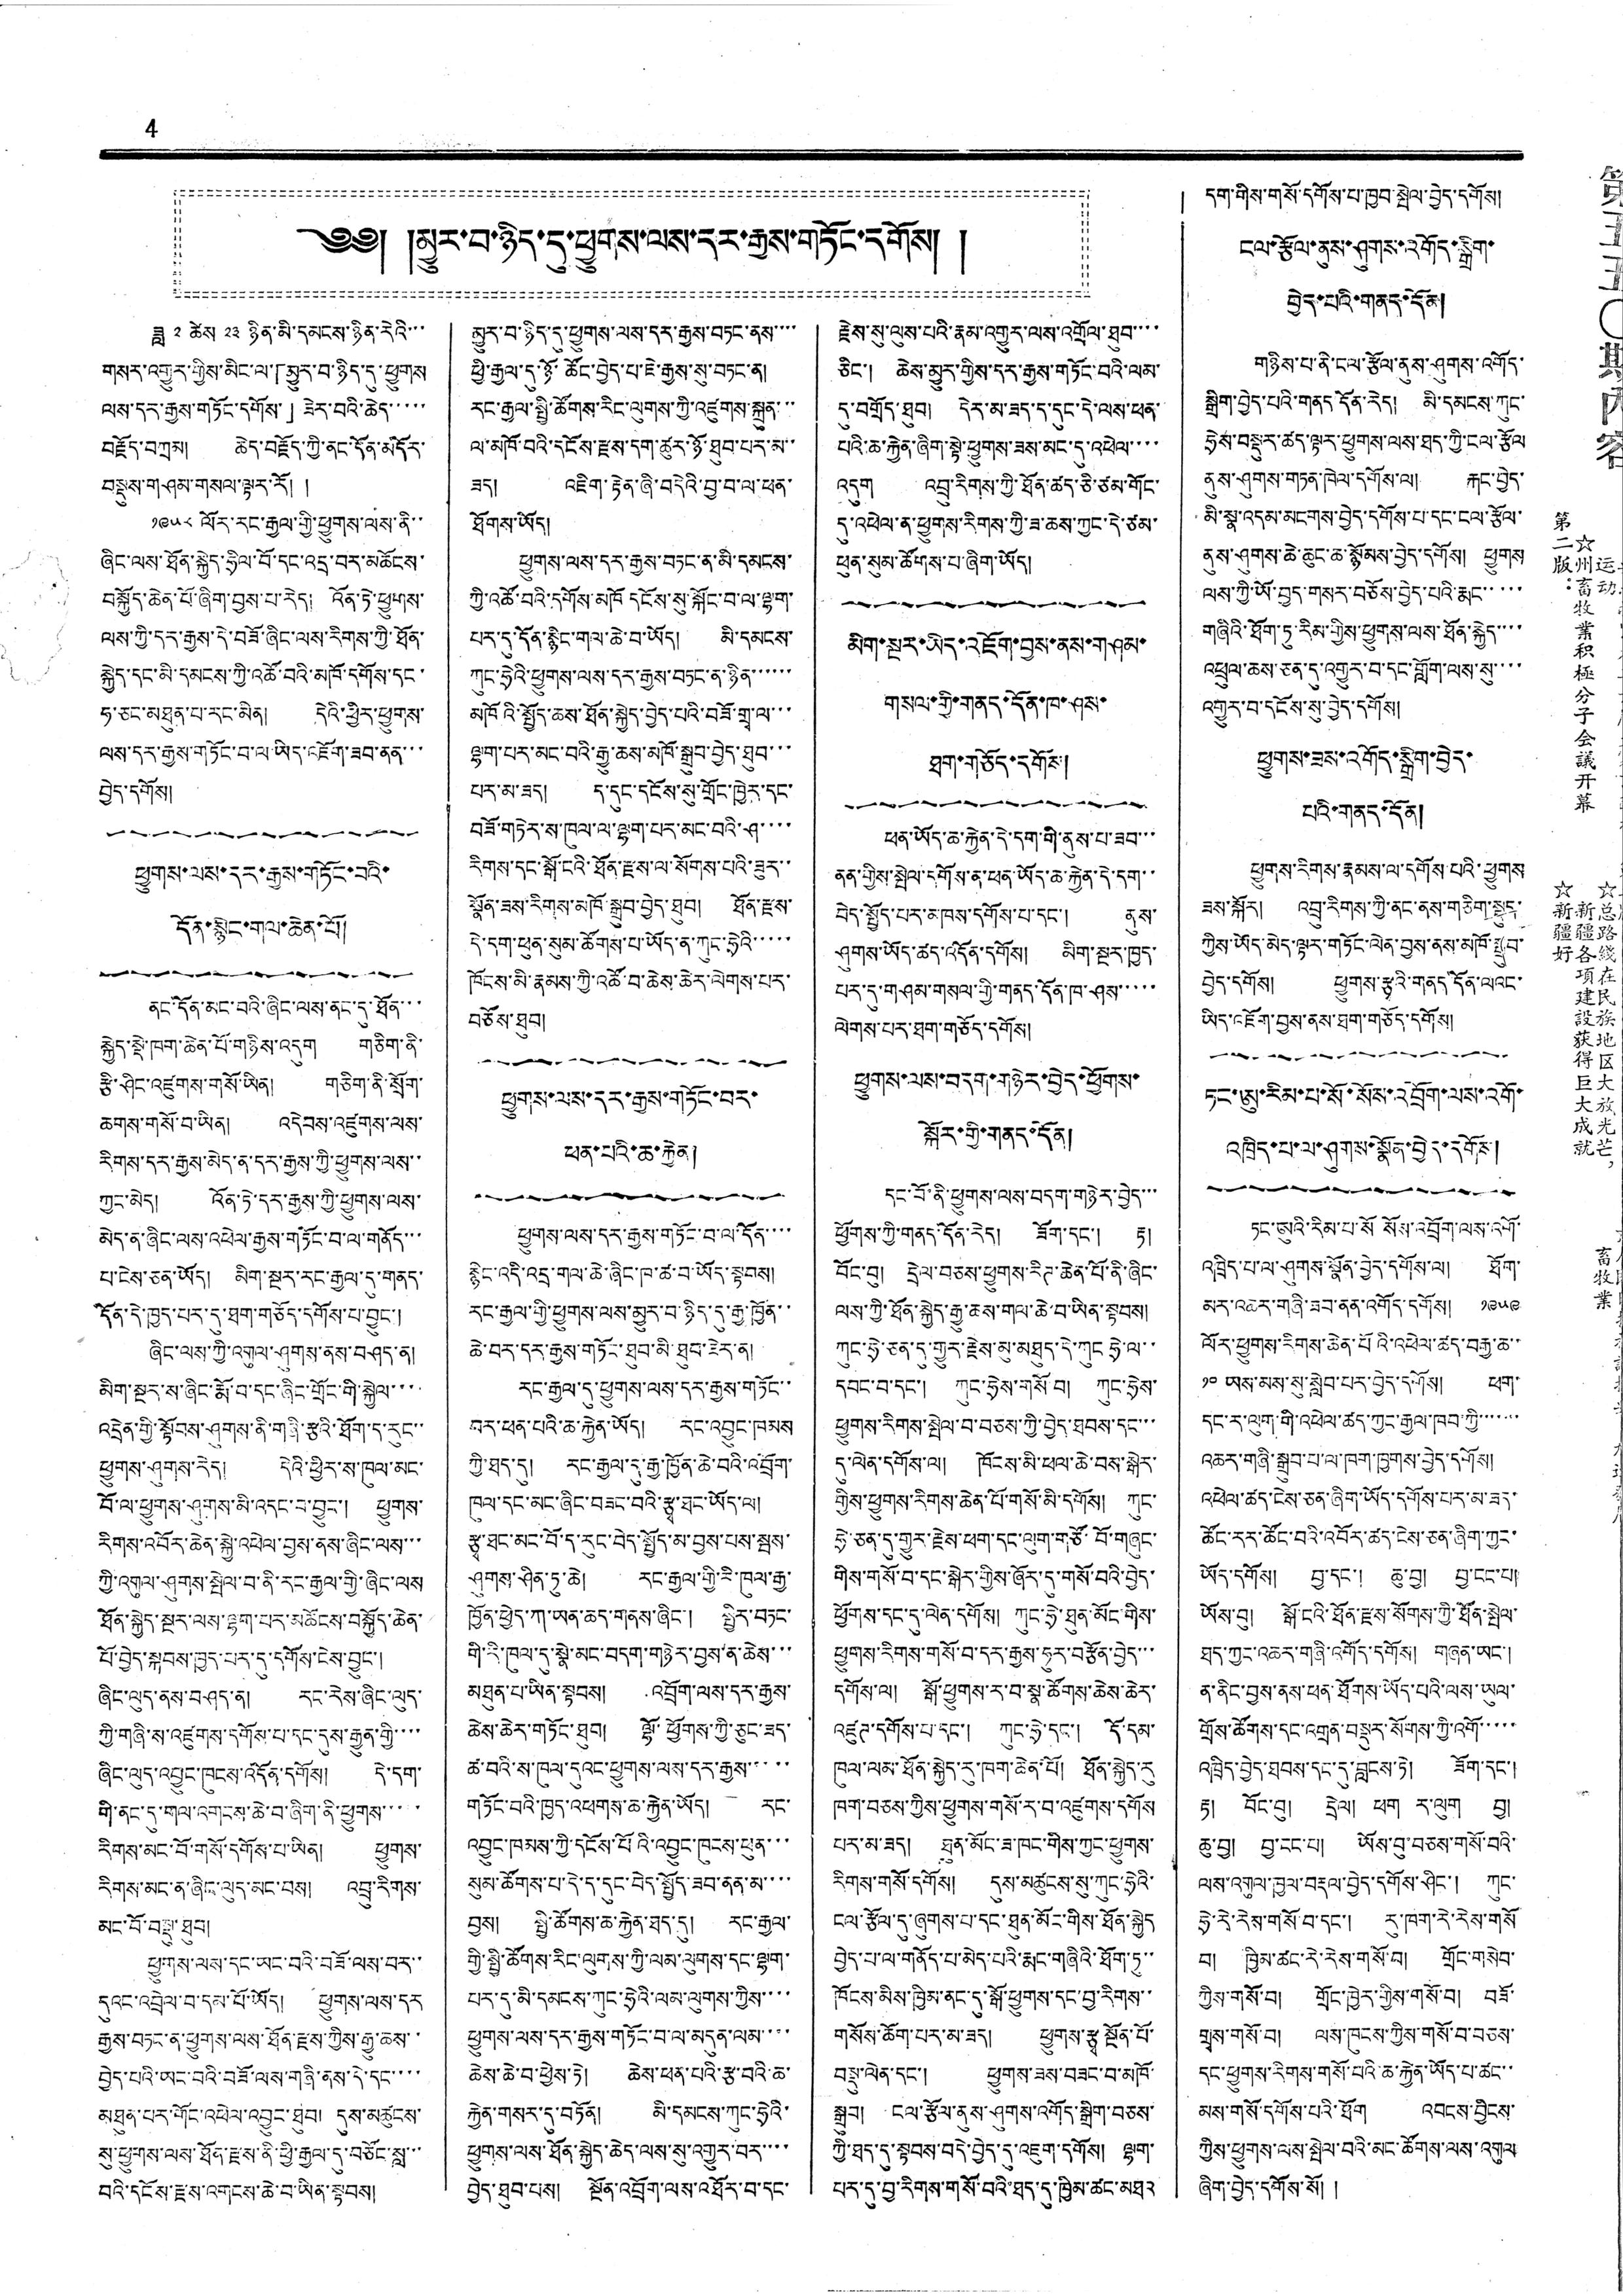4
༄༅། །མྱུར་བ་ཉིད་དུ་ཕྱུགས་ལས་དར་རྒྱས་གཏོང་དགོས། །
ཟླ ༢ ཚེས ༢༣ ཉིན་མི་དམངས་ཉིན་རེའི་་་
གསར་འགྱུར་གྱིས་མིང་ལ་「མྱུར་བ་ཉིད་དུ་ཕྱུགས
ལས་དར་རྒྱས་གཏོང་དགོས་」ཟེར་བའི་ཆེད་་་་་
བརྗོད་བཀྲམ། ཆེད་བརྗོད་ཀྱི་ནང་དོན་མདོར་
བསྡུས་གཤམ་གསལ་ལྟར་རོ། །
༡༩༥༨ ལོར་རང་རྒྱལ་གྱི་ཕྱུགས་ལས་ནི་་
ཞིང་ལས་ཐོན་སྐྱེད་ཧྲིལ་བོ་དང་འདྲ་བར་མཆོངས་
བསྐྱོད་ཆེན་པོ་ཞིག་བྱས་པ་རེད། འོན་ཏེ་ཕྱུགས་
ལས་ཀྱི་དར་རྒྱས་དེ་བཟོ་ཞིང་ལས་རིགས་ཀྱི་ཐོན་
སྐྱེད་དང་མི་དམངས་ཀྱི་འཚོ་བའི་མཁོ་དགོས་དང་
ཧ་ཅང་མཐུན་པ་རང་མིན། དེའི་ཕྱིར་ཕྱུགས་
ལས་དར་རྒྱས་གཏོང་བ་ལ་ཡིད་འཇོག་ཟབ་ནན་་་
བྱེད་དགོས།
ཕྱུགས་ལས་དར་རྒྱས་གཏོང་བའི་
དོན་སྙིང་གལ་ཆེན་པོ།
ནང་དོན་མང་བའི་ཞིང་ལས་ནང་དུ་ཐོན་་་
སྐྱེད་སྡེ་ཁག་ཆེན་པོ་གཉིས་འདུག གཅིག་ནི་
རྩི་ཤིང་འཛུགས་གསོ་ཡིན། གཅིག་ནི་སྲོག་
ཆགས་གསོ་བ་ཡིན། འདེབས་འཛུགས་ལས་
རིགས་དར་རྒྱས་མེད་ན་དར་རྒྱས་ཀྱི་ཕྱུགས་ལས་་
ཀྱང་མེད། འོན་ཏེ་དར་རྒྱས་ཀྱི་ཕྱུགས་ལས་
མེད་ན་ཞིང་ལས་འཕེལ་རྒྱས་གཏོང་བ་ལ་གནོད་་་
པ་ངེས་ཅན་ཡོད། མིག་སྔར་རང་རྒྱལ་དུ་གནད་
དོན་དེ་ཁྱད་པར་དུ་ཐག་གཅོད་དགོས་པ་བྱུང་།
ཞིང་ལས་ཀྱི་འགུལ་ཤུགས་ནས་བཤད་ན།
མིག་སྔར་ས་ཞིང་རྨོ་བ་དང་ཞིང་གྲོང་གི་སྐྱེལ་་་་
འདྲེན་གྱི་སྟོབས་ཤུགས་ནི་གཞི་རྩའི་ཐོག་ད་རུང་་
ཕྱུགས་ཤུགས་རེད། དེའི་ཕྱིར་ས་ཁུལ་མང་
བོ་ལ་ཕྱུགས་ཤུགས་མི་འདང་བ་བྱུང་། ཕྱུགས་
རིགས་འབོར་ཆེན་སྐྱེ་འཕེལ་བྱས་ནས་ཞིང་ལས་་་
ཀྱི་འགུལ་ཤུགས་སྤེལ་བ་ནི་རང་རྒྱལ་གྱི་ཞིང་ལས
ཐོན་སྐྱེད་སྔར་ལས་ལྷག་པར་མཆོངས་བསྐྱོད་ཆེན་
པོ་བྱེད་སྐབས་ཁྱད་པར་དུ་དགོས་ངེས་བྱུང་།
ཞིང་ལུད་ནས་བཤད་ན། རང་རེས་ཞིང་ལུད་
ཀྱི་གཞི་ས་འཛུགས་དགོས་པ་དང་དུས་རྒྱུན་གྱི་་་་
ཞིང་ལུད་འབྱུང་ཁུངས་འདོན་དགོས། དེ་དག་
གི་ནང་དུ་གལ་འགངས་ཆེ་བ་ཞིག་ནི་ཕྱུགས་་་་་
རིགས་མང་བོ་གསོ་དགོས་པ་ཡིན། ཕྱུགས་
རིགས་མང་ན་ཞིང་ལུད་མང་བས། འབྲུ་རིགས་
མང་བོ་བསྡུ་ཐུབ།
ཕྱུགས་ལས་དང་ཡང་བའི་བཟོ་ལས་བར་་
དུའང་འབྲེལ་བ་དམ་པོ་ཡོད། ཕྱུགས་ལས་དར
རྒྱས་བཏང་ན་ཕྱུགས་ལས་ཐོན་རྫས་ཀྱིས་རྒྱུ་ཆས་་
བྱེད་པའི་ཡང་བའི་བཟོ་ལས་གཞི་ནས་དེ་དང་་་་
མཐུན་པར་གོང་འཕེལ་འབྱུང་ཐུབ། དུས་མཚུངས་
སུ་ཕྱུགས་ལས་ཐོན་རྫས་ནི་ཕྱི་རྒྱལ་དུ་བཙོང་སླ་་་
བའི་དངོས་རྫས་འགངས་ཆེ་བ་ཡིན་སྟབས།
མྱུར་བ་ཉིད་དུ་ཕྱུགས་ལས་དར་རྒྱས་བཏང་ནས་་་་
ཕྱི་རྒྱལ་དུ་ཉོ་ཚོང་བྱེད་པ་ཇེ་རྒྱས་སུ་བཏང་ན།
རང་རྒྱལ་སྤྱི་ཚོགས་རིང་ལུགས་ཀྱི་འཛུགས་སྐྲུན་་་
ལ་མཁོ་བའི་དངོས་རྫས་དག་ཚུར་ཉོ་ཐུབ་པར་མ་་
ཟད། འཇིག་རྟེན་ཞི་བདེའི་བྱ་བ་ལ་ཕན་
ཐོགས་ཡོད།
ཕྱུགས་ལས་དར་རྒྱས་བཏང་ན་མི་དམངས་
ཀྱི་འཚོ་བའི་དགོས་མཁོ དངོས་སུ་སྐོང་བ་ལ་ལྷག་
པར་དུ་དོན་སྙིང་གལ་ཆེ་བ་ཡོད། མི་དམངས་
ཀུང་ཧྲེའི་ཕྱུགས་ལས་དར་རྒྱས་བཏང་ན་ཉིན་་་་་་
མཁོའི་སྤྱོད་ཆས་ཐོན་སྐྱེད་བྱེད་པའི་བཟོ་གྲྭ་ལ་་་
ལྷག་པར་མང་བའི་རྒྱུ་ཆས་མཁོ་སྒྲུབ་བྱེད་ཐུབ་་་
པར་མ་ཟད། ད་དུང་དངོས་སུ་གྲོང་ཁྱེར་དང་
བཟོ་གཏེར་ས་ཁུལ་ལ་ལྷག་པར་མང་བའི་ཤ་་་་
རིགས་དང་སྒོ་ངའི་ཐོན་རྫས་ལ་སོགས་པའི་ཟུར་་
སྣོན་ཟས་རིགས་མཁོ་སྒྲུབ་བྱེད་ཐུབ། ཐོན་རྫས་
དེ་དག་ཕུན་སུམ་ཚོགས་པ་ཡོད་ན་ཀུང་ཧྲེའི་་་་་
ཁོངས་མི་རྣམས་ཀྱི་འཚོ་བ་ཆེས་ཆེར་ལེགས་པར་
བཅོས་ཐུབ།
ཕྱུགས་ལས་དར་རྒྱས་གཏོང་བར་
ཕན་པའི་ཆ་རྐྱེན།
ཕྱུགས་ལས་དར་རྒྱས་གཏོང་བ་ལ་དོན་་་་
སྙིང་འདི་འདྲ་གལ་ཆེ་ཞིང་ཁ་ཚ་བ་ཡོད་སྟབས།
རང་རྒྱལ་གྱི་ཕྱུགས་ལས་མྱུར་བ་ཉིད་དུ་རྒྱ་ཁྱོན་་
ཆེ་བར་དར་རྒྱས་གཏོང་ཐུབ་མི་ཐུབ་ཟེར་ན།
རང་རྒྱལ་དུ་ཕྱུགས་ལས་དར་རྒྱས་གཏོང་་
བར་ཕན་པའི་ཆ་རྐྱེན་ཡོད། རང་འབྱུང་ཁམས
ཀྱི་ཐད་དུ། རང་རྒྱལ་དུ་རྒྱ་ཁྱོན་ཆེ་བའི་འབྲོག་
ཁུལ་དང་མང་ཞིང་བཟང་བའི་རྩྭ་ཐང་ཡོད་ལ།
རྩྭ་ཐང་མང་བོ་ད་རུང་བེད་སྤྱོད་མ་བྱས་པས་སྦས་
ཤུགས་ཤིན་ཏུ་ཆེ། རང་རྒྱལ་གྱི་རི་ཁུལ་རྒྱ་
ཁྱོན་ཕྱེད་ཀ་ཡན་ཆད་གནས་ཞིང་། སྤྱིར་བཏང་
གི་རི་ཁུལ་དུ་སྣེ་མང་བདག་གཉེར་བྱས་ན་ཆེས་་་
མཐུན་པ་ཡིན་སྟབས། འབྲོག་ལས་དར་རྒྱས་
ཆེས་ཆེར་གཏོང་ཐུབ། ལྷོ་ཕྱོགས་ཀྱི་ཅུང་ཟད་
ཚ་བའི་ས་ཁུལ་དུའང་ཕྱུགས་ལས་དར་རྒྱས་་་་་
གཏོང་བའི་ཁྱད་འཕགས་ཆ་རྐྱེན་ཡོད། རང་
འབྱུང་ཁམས་ཀྱི་དངོས་པོའི་འབྱུང་ཁུངས་ཕུན་་་
སུམ་ཚོགས་པ་དེ་ད་དུང་བེད་སྤྱོད་ཟབ་ནན་མ་་་་
བྱས། སྤྱི་ཚོགས་ཆ་རྐྱེན་ཐད་དུ། རང་རྒྱལ་
གྱི་སྤྱི་ཚོགས་རིང་ལུགས་ཀྱི་ལམ་ལུགས་དང་ལྷག་
པར་དུ་མི་དམངས་ཀུང་ཧྲེའི་ལམ་ལུགས་ཀྱིས་་་་
ཕྱུགས་ལས་དར་རྒྱས་གཏོང་བ་ལ་མདུན་ལམ་་་་
ཆེས་ཆེ་བ་ཕྱེས་ཏེ། ཆེས་ཕན་པའི་རྩ་བའི་ཆ་
རྐྱེན་གསར་དུ་བཏོན། མི་དམངས་ཀུང་ཧྲེའི་
ཕྱུགས་ལས་ཐོན་སྐྱེད་ཆེད་ལས་སུ་འགྱུར་བར་་་་
བྱེད་ཐུབ་པས། སྔོན་འབྲོག་ལས་འཐོར་བ་དང་
རྗེས་སུ་ལུས་པའི་རྣམ་འགྱུར་ལས་འགྲོལ་ཐུབ་་་་
ཅིང་། ཆེས་མྱུར་གྱིས་དར་རྒྱས་གཏོང་བའི་ལམ་
དུ་བགྲོད་ཐུབ། དེར་མ་ཟད་ད་དུང་དེ་ལས་ཕན་
པའི་ཆ་རྐྱེན་ཞིག་སྟེ་ཕྱུགས་ཟས་མང་དུ་འཕེལ་་་་
འདུག འབྲུ་རིགས་ཀྱི་ཐོན་ཚད་ཅི་ཙམ་གོང་
དུ་འཕེལ་ན་ཕྱུགས་རིགས་ཀྱི་ཟ་ཆས་ཀྱང་དེ་ཙམ་
ཕུན་སུམ་ཚོགས་པ་ཞིག་ཡོད།
མིག་སྔར་ཡིད་འཇོག་བྱས་ནས་གཤམ་
གསལ་གྱི་གནད་དོན་ཁ་ཤས་
ཐག་གཅོད་དགོས།
ཕན་ཡོད་ཆ་རྐྱེན་དེ་དག་གི་ནུས་པ་ཟབ་་་
ནན་གྱིས་སྤེལ་དགོས་ན་ཕན་ཡོད་ཆ་རྐྱེན་དེ་དག་་
བེད་སྤྱོད་པར་མཁས་དགོས་པ་དང་། ནུས་
ཤུགས་ཡོད་ཚད་འདོན་དགོས། མིག་སྔར་ཁྱད་
པར་དུ་གཤམ་གསལ་གྱི་གནད་དོན་ཁ་ཤས་་་་་
ལེགས་པར་ཐག་གཅོད་དགོས།
ཕྱུགས་ལས་བདག་གཉེར་བྱེད་ཕྱོགས་
སྐོར་གྱི་གནད་དོན།
དང་བོ་ནི་ཕྱུགས་ལས་བདག་གཉེར་བྱེད་་་
ཕྱོགས་ཀྱི་གནད་དོན་རེད། ཟོག་དང་། རྟ།
བོང་བུ། དྲེལ་བཅས་ཕྱུགས་རིཊ་ཆེན་པོ་ནི་ཞིང་
ལས་ཀྱི་ཐོན་སྐྱེད་རྒྱུ་ཆས་གལ་ཆེ་བ་ཡིན་སྟབས།
ཀུང་ཧྲེ་ཅན་དུ་གྱུར་རྗེས་མུ་མཐུད་དེ་ཀུང ཧྲེ་ལ་་
དབང་བ་དང་། ཀུང་ཧྲེས་གསོ བ། ཀུང་ཧྲེས་
ཕྱུགས་རིགས་སྤེལ་བ་བཅས་ཀྱི་བྱེད་ཐབས་དང་་་
དུ་ལེན་དགོས་ལ། ཁོངས་མི་ཕལ་ཆེ་བས་སྒེར་
གྱིས་ཕྱུགས་རིགས་ཆེན་པོ་གསོ་མི་དགོས། ཀུང་
ཧྲེ་ཅན་དུ་གྱུར་རྗེས་ཕག་དང་ལུག་གཙོ་བོ་གཞུང་
གིས་གསོ་བ་དང་སྒེར་གྱིས་ཞོར་དུ་གསོ་བའི་བྱེད་
ཕྱོགས་དང་དུ་ལེན་དགོས། ཀུང་ཧྲེ་ཐུན་མོང་གིས་
ཕྱུགས་རིགས་གསོ་བ་དར་རྒྱས་ཧུར་བརྩོན་བྱེད་་་
དགོས་ལ། སྒོ་ཕྱུགས་ར་བ་སྣ་ཚོགས་ཆེས་ཆེར་
འཛུཊ་དགོས་པ་དང་། ཀུང་ཧྲེ་དང་། དོ་དམ་
ཁུལ་ལམ་ཐོན་སྐྱེད་རུ་ཁག་ཆེན་པོ། ཐོན་སྐྱེད་རུ
ཁག་བཅས་ཀྱིས་ཕྱུགས་གསོ་ར་བ་འཛུགས་དགོས
པར་མ་ཟད། ཐུན་མོང་ཟ་ཁང་གིས་ཀྱང་ཕྱུགས་
རིགས་གསོ་དགོས། དུས་མཚུངས་སུ་ཀུང་ཧྲེའི་
ངལ་རྩོལ་དུ་ཞུགས་པ་དང་ཐུན་མོང་གིས་ཐོན་སྐྱེད
བྱེད་པ་ལ་གནོད་པ་མེད་པའི་རྨང་གཞིའི་ཐོག་ཏུ་་་
ཁོངས་མིས་ཁྱིམ་ནང་དུ་སྒོ་ཕྱུགས་དང་བྱ་རིགས་་
གསོས་ཆོག་པར་མ་ཟད། ཕྱུགས་རྩྭ སྔོན་པོ་
བསྡུ་ལེན་དང་། ཕྱུགས་ཟས་བཟང་བ་མཁོ་
སྒྲུབ། ངལ་རྩོལ་ནུས་ཤུགས་འགོད་སྒྲིག་བཅས་
ཀྱི་ཐད་དུ་སྟབས་བདེ་བྱེད་དུ་འཇུག་དགོས། ལྷག་
པར་དུ་བྱས་རིགས་གསོ་བའི་ཐད་དུ་ཁྱིམ་ཚང་མཐའ
དག་གིས་གསོ་དགོས་པ་ཁྱབ་སྤེལ་བྱེད་དགོས།
ངལ་རྩོལ་ནུས་ཤུགས་འགོད་སྒྲིག་
བྱེད་པའི་གནད་དོན།
གཉིས་པ་ནི་ངལ་རྩོལ་ནུས་ཤུགས་འགོད་
སྒྲིག་བྱེད་པའི་གནད་དོན་རེད། མི་དམངས་ཀུང་
ཧྲེས་བསྡུར་ཚད་ལྟར་ཕྱུགས་ལས་ཐད་ཀྱི་ངལ་རྩོལ
ནུས་ཤུགས་གཏན་ཁེལ་དགོས་ལ། རྐང་བྱེད་
མི་སྣ་འདམ་མངགས་བྱེད་དགོས་པ་དང་ངལ་རྩོལ་
ནུས་ཤུགས་ཆེ་ཆུང་ཆ་སྙོམས་བྱེད་དགོས། ཕྱུགས
ལས་ཀྱི་ཡོ་བྱད་གསར་བཅོས་བྱེད་པའི་རྨང་་་་་
གཞིའི་ཐོག་ཏུ་རིམ་གྱིས་ཕྱུགས་ལས་ཐོན་སྐྱེད་་་་
འཕྲུལ་ཆས་ཅན་དུ་འགྱུར་བ་དང་གློག་ལས་སུ་་་་
འགྱུར་བ་དངོས་སུ་བྱེད་དགོས།
ཕྱུགས་ཟས་འགོད་སྒྲིག་བྱེད་
པའི་གནད་དོན།
ཕྱུགས་རིགས་རྣམས་ལ་དགོས་པའི་ཕྱུགས
ཟས་སྐོར། འབྲུ་རིགས་ཀྱི་ནང་ནས་གཅིག་སྡུད་
ཀྱིས་ཡོད་མེད་ལྟར་གཏོང་ལེན་བྱས་ནས་མཁོ་སྒྲུབ་
བྱེད་དགོས། ཕྱུགས་རྩྭའི་གནད དོན་ལའང་
ཡིད་འཇོག་བྱས་ནས་ཐག་གཅོད་དགོས།
ཏང་ཨུ་རིམ་པ་སོ་སོས་འབྲོག་ལས་འགོ་
འཁྲིད་པ་ལ་ཤུགས་སྣོན་བྱེད་དགོས།
ཏང་ཨུའི་རིམ་པ་སོ སོས་འབྲོག་ལས་འགོ་
འཁྲིད་པ་ལ་ཤགུས་སྣོན་བྱེད་དགོས་ལ། ཐོག་
མར་འཆར་གཞི་ཟབ་ནན་འགོད་དགོས། ༡༩༥༩
ལོར་ཕྱུགས་རིགས་ཆེན་པོའི་འཕེལ་ཚད་བརྒྱ་ཆ་་
༡༠ ཡས་མས་སུ་སླེབ་པར་བྱེད་དགོས། ཕག་
དང་ར་ལུག་གི་འཕེལ་ཚད་ཀྱང་རྒྱལ་ཁབ་ཀྱི་་་་་་་
འཆར་གཞི་སྒྲུབ་པ་ལ་ཁག་ཁྱགས་བྱེད་དགོས།
འཕེལ་ཚད་ངེས་ཅན་ཞིག་ཡོད་དགོས་པར་མ་ཟད་
ཚོང་རར་ཚོང་བའི་འབོར་ཚད་ངེས་ཅན་ཞིག་ཀྱང་
ཡོད་དགོས། བྱ་དང་། ཆུ་བྱ། བྱ་ངང་པ།
ཡོས་བུ། སྒོ་ངའི་ཐོན་རྫས་སོགས་ཀྱི་ཐོན་སྤེལ་
ཐད་ཀྱང་འཆར་གཞི་འགོད་དགོས། གཞན་ཡང་།
ན་ནིང་བྱས་ནས་ཕན་ཐོགས་ཡོད་པའི་ལས་ཡུལ་
གྲོས་ཚོགས་དང་འགྲན་བསྡུར་སོགས་ཀྱི་འགོ་་་་་
འཁྲིད་བྱེད་ཐབས་དང་དུ་བླངས་ཏེ། ཟོག་དང་།
རྟ། བོང་བུ། དྲེལ། ཕག ར་ལུག བྱ།
ཆུ་བྱ། བྱ་ངང་པ། ཡོས་བུ་བཅས་གསོ་བའི་
ལས་འགུལ་ཁྱལ་བརྡལ་བྱེད་དགོས་ཤིང་། ཀུང་
ཧྲེ་རེ་རེས་གསོ་བ་དང་། རུ་ཁག་རེ་རེས་གསོ
བ། ཁྱིམ་ཚང་རེ་རེས་གསོ་བ། གྲོང་གསེབ་
ཀྱིས་གསོ་བ། གྲོང་ཁྱེར་གྱིས་གསོ་བ། བཟོ་
གྲྭས་གསོ་བ། ལས་ཁུངས་ཀྱིས་གསོ་བ་བཅས་
དང་ཕྱུགས་རིགས་གསོ་པའི་ཆ་རྐྱེན་ཡོད་པ་ཚང་་
མས་གསོ་དགོས་པའི་ཐོག འབངས་བྱིངས་
ཀྱིས་ཕྱུགས་ལས་སྤེལ་བའི་མང་ཚོགས་ལས་འགུལ
ཞིག་བྱེད་དགོས་སོ། །
第五五〇期內容
运动
☆州畜牧業积極分子会議开幕
第二版：
☆总路綫在民族地区大放光芒，
新疆各項建設获得巨大成就
☆新疆好
畜牧業
